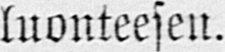luonteesen.
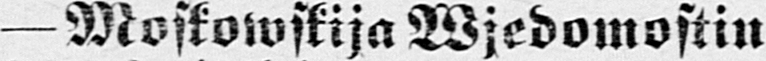— Moskowskija Wjedomostin
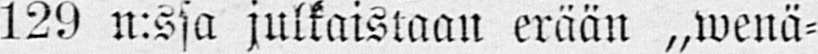129 n:ssa julkaistaan erään „wenä-
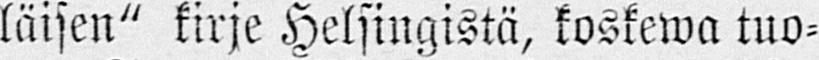läisen" kirje Helsingistä, koskewa tuo-
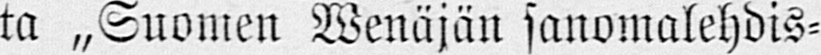ta „Suomen Wenäjän sanomalehdis-
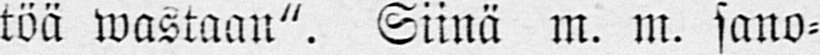töä wastaan". Siinä m. m. sano-
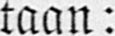taan:
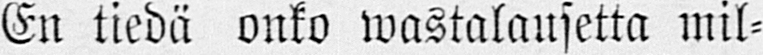En tiedä onko wastalausetta mil-
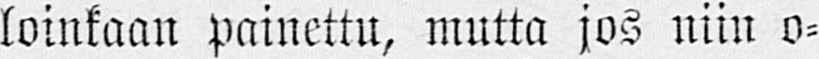loinkaan painettu, mutta jos niin o-
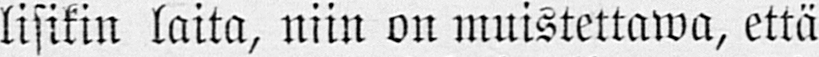lisikin laita, niin on muistettawa, että
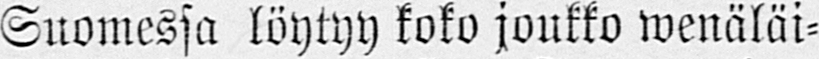Suomessa löytyy koko joukko wenäläi-
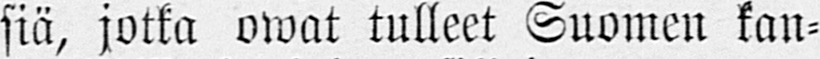siä, jotka owat tulleet Suomen kan-
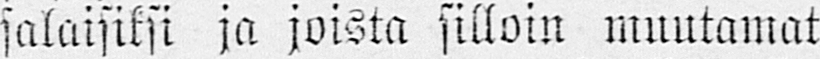salaisiksi ja joista silloin muutamat
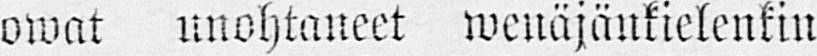owat unohtaneet wenäjänkielenkin
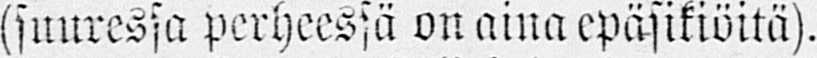(suuressa perheessä on aina epäsikiöitä).
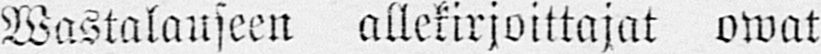Wastalauseen allekirjoittajat owat
